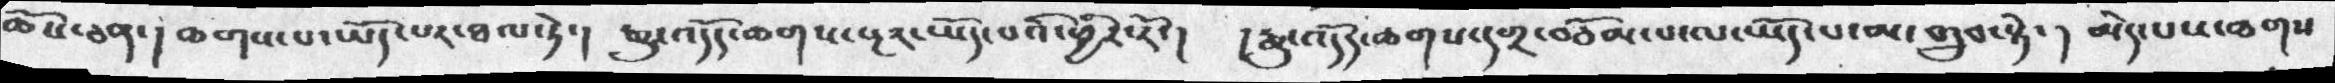ཆོས་ཅན་།  ཆགས་པ་ཡོད་པར་ཐལ་ཏེ་།  རྒྱུ་འདོད་ཆགས་སྔར་ཡོད་པའི་ཕྱིར་རོ་།    ། རྒྱུ་འདོད་ཆགས་དགྲ་བཅོམ་པ་ལ་ཡོད་པ་མ་གྲུབ་སྟེ་ ། མེད་པས་ཆགས་
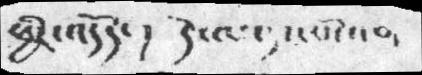ཕྱིར་འདོད་།  དེ་ལ་དང་པོ་
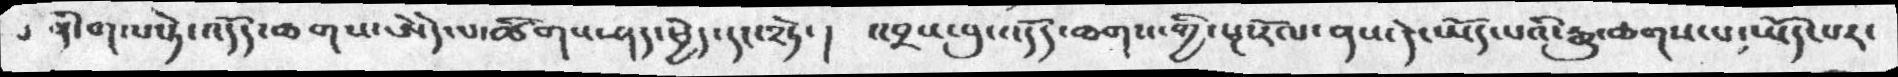ནི་གལ་ཏེ་འདོད་ཆགས་ཨེདེ་པ་ཚིགས་ཤད་ཕྱེད་དང་༢ཏེ་། འབྲས་བུ་འདོད་ཆགས་གྱི་སྔ་རོལ་ནས་དེ་ཡོད་པའི་རྒྱུ་ཆགས་པ་ཡོད་པར་
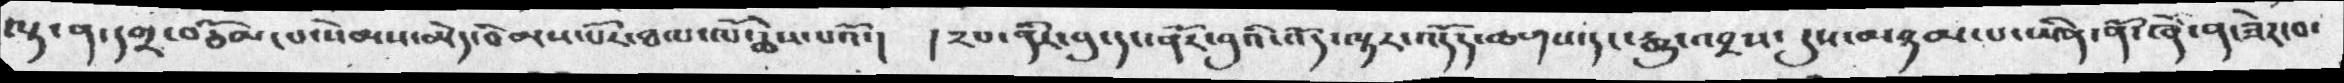ལྟ་ན་དགྲ་བཅོམ་པ་སེམས་མེད་བེམས་པོར་ཐལ་ལོ་ཆེས་པའོ་།  །༢པ་ནིར་བུ་དང་ནོར་བུའི་འོད་ལྟར་འདོད་ཆགས་དང་རྒྱུ་འབྲས་དུས་མཉམ་པ་ཡིན་ནོ་ཞེ་ན་ཟེར་བ་
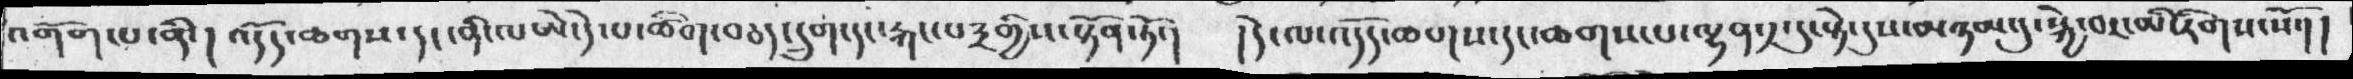འགོག་པ་ནི་། འདོད་ཆགས་དང་ནི་ལཨེ་དེ་པ་ཚིག་བཅད་དྲུག་དང་རྐང་པ༣གྱིས་སྟོན་ཏོ་།   །དེ་ལ་འདོད་ཆགས་པ་ལྷན་༡་དུ་སྟེ་དུས་མཉམ་དུ་སྐྱེ་བར་མི་རིགས་སོ་།།
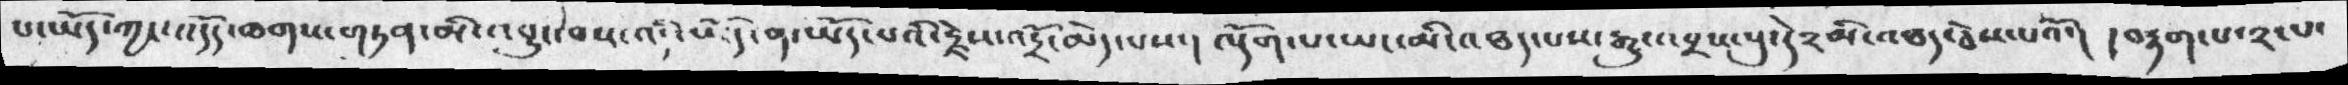པ་ཡོད་ཀྱང་འདོད་ཆགས་གཏན་མི་འབྱུང་བས་འདི་ཡོད་ན་ཡོད་པའི་རྗེས་འདྲོ་མེད་པས་། ལྡོག་པ་ཡང་མི་འཐད་པས་རྒྱུ་འབྲས་སུ་དེ༢མི་འཐད་ཅེས་པའོ་། །བརྟག་པ་༢་པ་
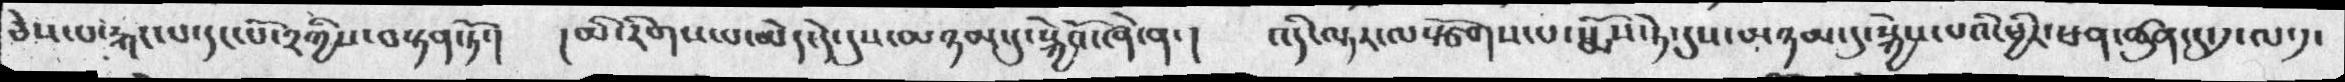ཅེས་པ་རྐང་པ་དང་པོ་༢ཀྱིས་བསྟན་ཏོ་།  །མི་རིགས་པ་མེད་དེ་དུས་མཉམ་དུ་སྐྱེའོ་ཞེ་ན་། འདི་ལྟར་ལསྩོགས་པ་སྨོས་ཏེ་དུས་མཉམ་དུ་སྐྱེས་པའི་ཕྱིར་ཕན་ཚུན་ད་དུ་ལ་༡་
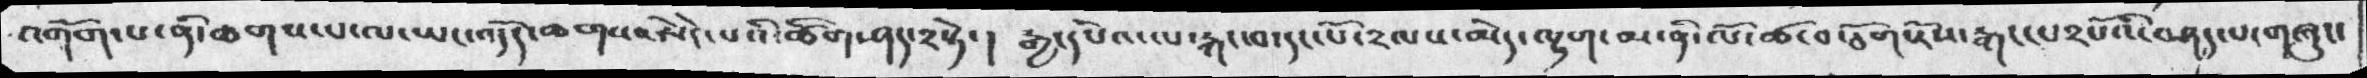འགོག་པ་ནི་ཆགས་པ་ལ་ཡང་འདོད་ཆགས་ཨེདེ་པའི་ཚིག་ཤད་༢སྟེ་། རྒྱ་དཔེའ་ལ་རྐང་བ་དང་པོ་༢ལས་མེད་ལྷག་མ་ནི་ལོ་ཚ་བ་ཅོག་རོས་རྒང་པ༢པོའི་བཤད་པ་གཞུང་
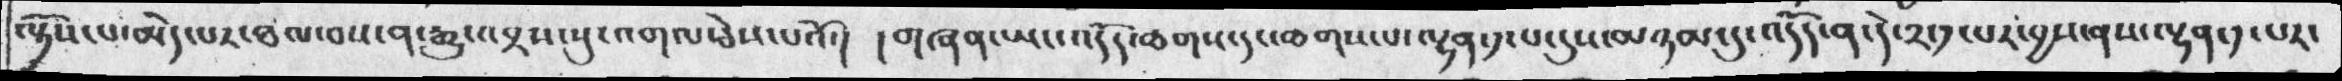ལྟོས་པ་མེད་པར་ཐལ་བས་ན་རྒྱུ་འབྲས་སུ་འགལ་ཅེས་པའོ་། །གཞན་ཡང་འདོད་ཆགས་དང་ཆགས་པ་ལྷན་༡་པ་དུས་མཉམ་དུ་འདོད་ན་དེ་༢་༡་པར་བྱས་ནས་ལྷན་༡་པར་
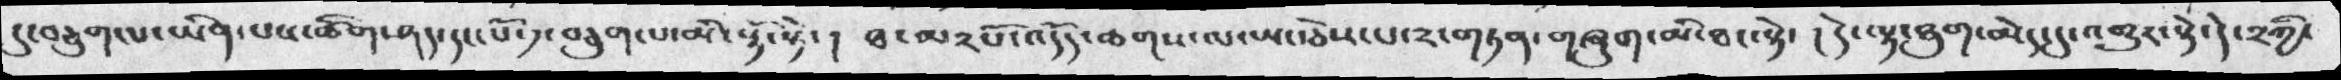དུ་བཅུག་པ་ཡིན་པས་ཚིག་ཤད་དང་པོ་༡་བཅུག་པ་མི་སྟོ་སྟེ་།  ཐ་མ༢པོ་འདོད་ཆགས་ལ་ཡང་ཅེས་པ་༢་གཏན་གཞུག་མི་ཐང་སྟེ་། དེ་ལྟ་ཐུག་མེད་དུ་འགྱུར་སྟེ་དེ་༢ཀྱི་
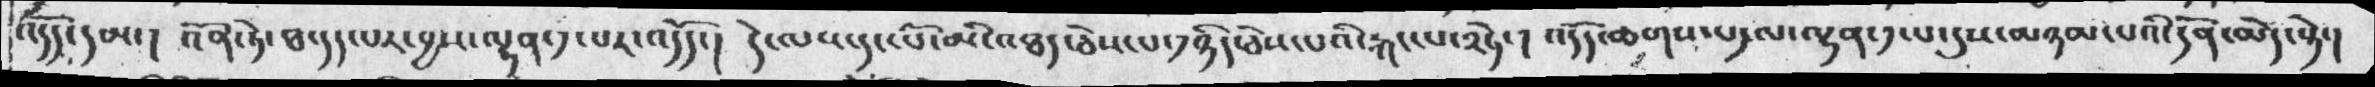འདོད་དམ་། འོན་ཏེ་ཐ་དད་པར་བྱས་ལྷན་༡་པར་འདོད་།  དེ་ལས་དང་པོ་མི་འཐད་ཅེས་པ་༡ཉིད་ཅེས་པའི་རྐང་པ་༢ཏེ་། འདོད་ཆགས་པ་ལ་ལྷན་༡་པ་དུས་མཉམ་པའི་དོན་མེད་སྟེ་།
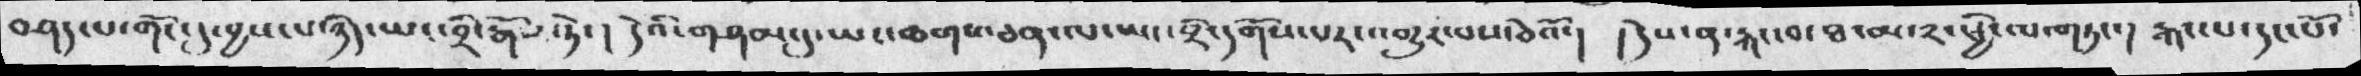བཤད་པ་གོང་དུ་བྱས་པ་ཉིད་ཡང་བྲི་རྒོལ་ཏེ་། དེའི་གཤམ་དུ་ཡང་ཆགས་ཅན་ལ་ཡང་བྲི་དགོས་པར་འགྱུར་བས་ཅེའོ་།  །དེས་ན་རྐང་བ་ཐ་མ་༢་ཕྱི་ལ་གཏང་། རྐང་པ་དང་པོ་
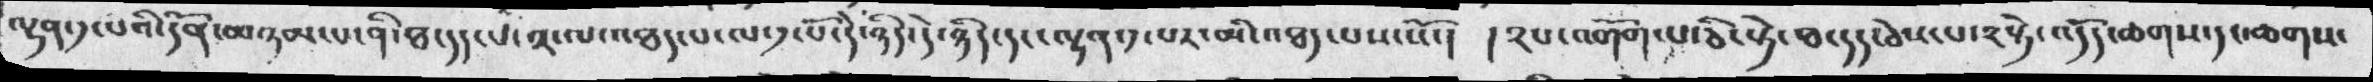ལྷན་༡་པའི་དོན་མཉམ་པ་ནི་ཐ་དད་པ་༢་ལ་འཐད་པ་ལ་༡་པོ་དེ་ཉིད་དེ་ཉིད་དང་ལྷན་༡་པར་མི་འཐད་པས་སོ་། །༢པ་འགོག་པ་ཅི་སྟེ་ཐ་དད་ཅེས་པ་༢སྟེ་འདོད་ཆགས་དང་ཆགས་
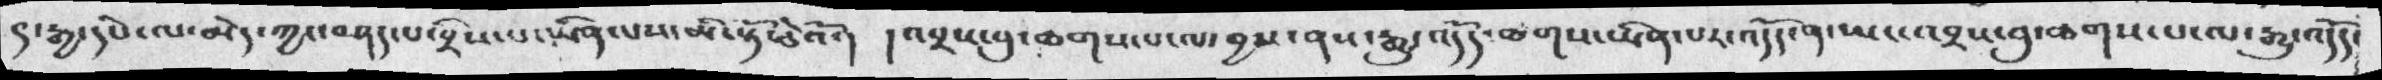ད་རྒྱ་དཔེ་ལ་མེད་ཀྱང་བཤད་པ་བྲིས་པ་ཡིན་པས་མི་སྟོ་ཅེའོ་། །འབྲས་བུ་ཆགས་པ་ལ་བྱས་ནས་རྒྱུ་འདོད་ཆགས་ཡིན་པར་འདོད་ན་ཡང་འབྲས་བུ་ཆགས་པ་ལ་རྒྱུ་འདོད་
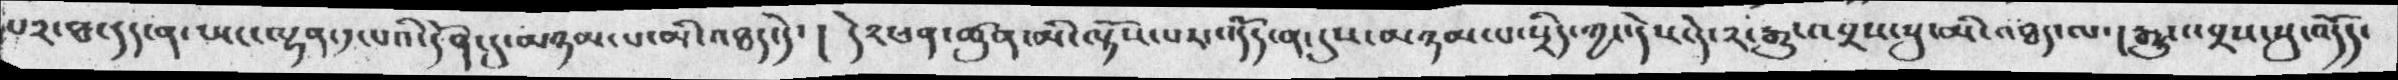པར་ཐ་དད་ན་ཡང་ལྷན་༡་པའི་དོན་དུ་མཉམ་པ་མི་འཐད་དེ་།  དེ༢་ཕན་ཚུན་མི་ལྟོས་པར་འདོད་ན་དུས་མཉམ་པ་སྲིད་ཀྱང་དེས་དེ་༡་རྒྱུ་འབྲས་སུ་མི་འཐད་ལ་། རྒྱུ་འབྲས་སུ་འདོད་
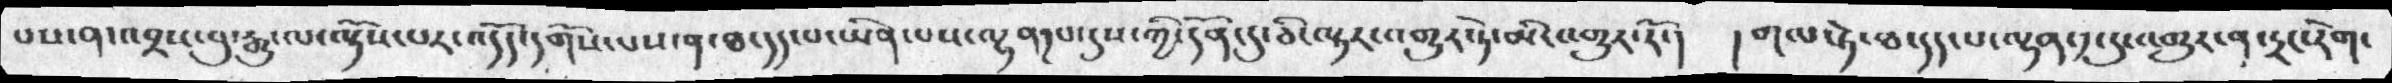པས་ན་འབྲས་བུ་རྒྱུ་ལ་ལྟོས་པར་འདོད་དགོས་པས་ན་ཐ་དད་པ་ཡིན་པས་ལྷན༡པ་དུས་ཀྱི་དོན་དུ་ཅི་ལྟར་འགྱུར་ཏེ་མི་འགྱུར་རོ་།  །གལ་ཏེ་ཐ་དད་པ་ལྷན་༡་དུ་འགྱུར་ན་དྲང་རེག་
